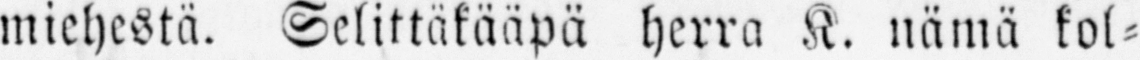miehestä. Selittäkääpä herra K. nämä kol-
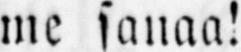me sanaa!
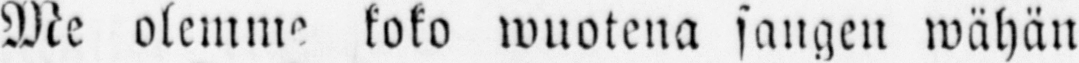Me olemme koko wuotena sangen wähän
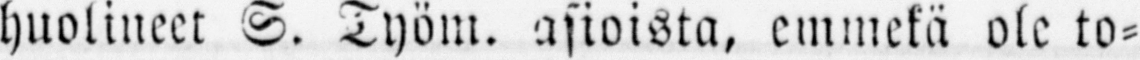huolineet S. Työm, asioista, emmekä ole to-
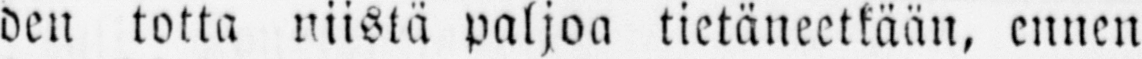den totta niistä paljoa tietäneetkään, ennen
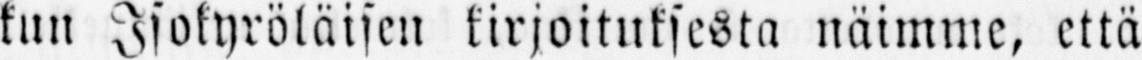kun Isokyröläisen kirjoituksesta näimme, että
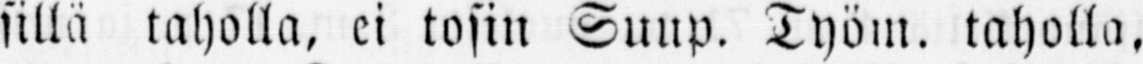sillä taholla, ei tosin Suup. Työm. taholla,
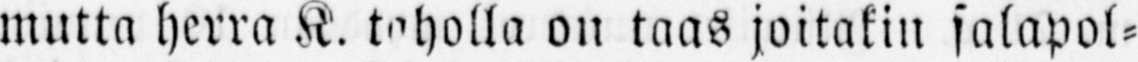mutta herra K. taholla on taas joitakin salapol-
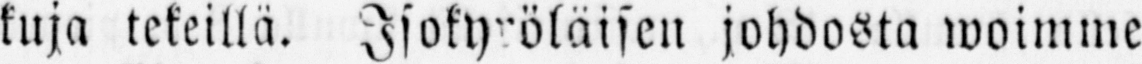kuja tekeillä. Isokyröläisen johdosta woimme
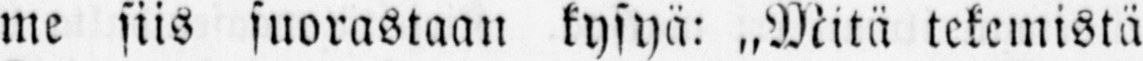me siis suorastaan kysyä: „Mitä tekemistä
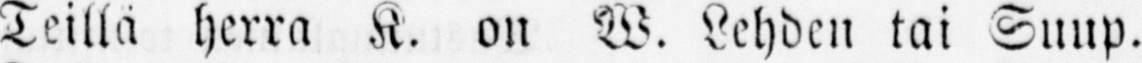Teillä herra K. on W. Lehden tai Suup.
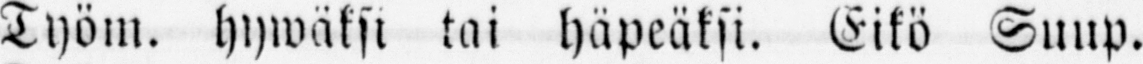Työm. hywäksi tai häpeäksi. Eikö Suup.
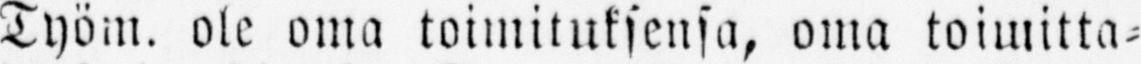Työm, ole oma toimituksensa, oma toimitta-
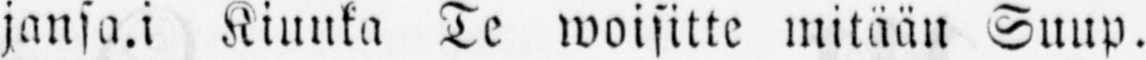jansa.i Kiunka Te woisitte mitään Suup.
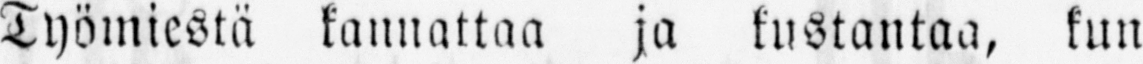Työmiestä kannattaa ja kustantaa, kun
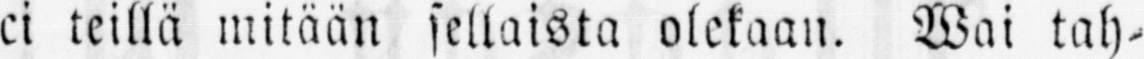ei teillä mitään sellaista olekaan. Wai tah-
